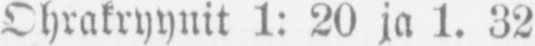Ohrakryynit 1:20 ja 1. 32
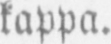kappa.
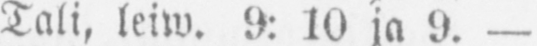Tali, leiw. 9: 10 ja 9.-
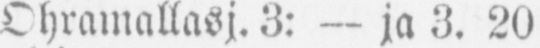Ohramallasj.3: — ja 3. 20
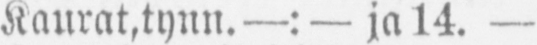Kaurat.tynn.—:—ja 4. —
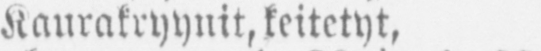Kaurakryynit, keitetyt,
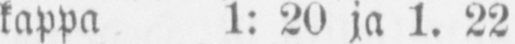kappa l: 20 ja 1. 22
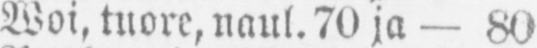Woi. tuore, naul. 70 ja — 80
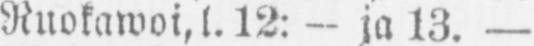Ruokawoi,l. 12: - ja 13. —
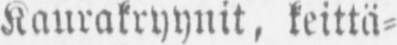Kaurakryynit, keittä-
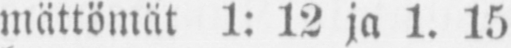mättömät 1: 12 ja 1. 15
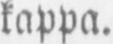kappa.
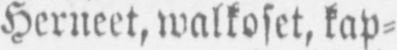Herneet,walkoset, kap-
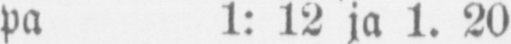pa 1: 12 ja 1. 20
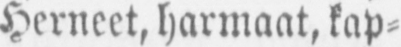Herneet, harmaat, kap-
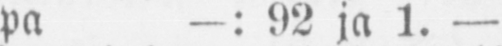pa —:92 ja 1. —
